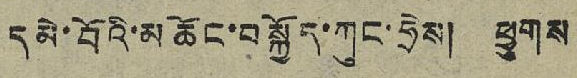དམེ་བོའི་མཆོང་བསྐྱོད་ཀུང་ཧྲེས། ཕྱུགས
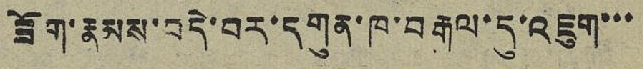ཟོག་རྣམས་བདེ་བར་དགུན་ཁ་བརྒལ་དུ་འཇུག་་་
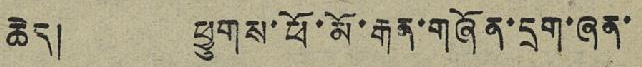ཆེད། ཕྱུགས་ཕོ་མོ་རྒན་གཞོན་དྲག་ཞན་
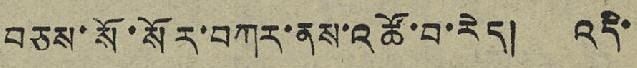བཅས་སོ་སོར་བཀར་ནས་འཚོ་བ་རེད། འདི་
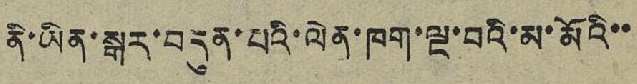ནི་ཡིན་སྒར་བདུན་པའི་ལེན་ཁག་ལྔ་བའི་མ་མོའི་་
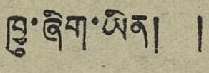ཁྱུ་ཞིག་ཡིན། །
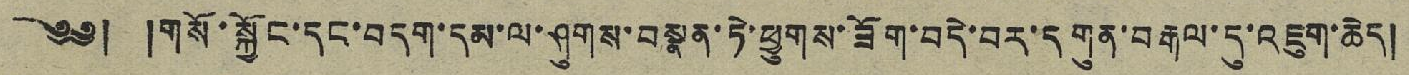༄༅། །གསོ་སྐྱོང་དང་བདག་དམ་ལ་ཤུགས་བསྣན་ཏེ་ཕྱུགས་ཟོག་བདེ་བར་དགུན་བརྒལ་དུ་འཇུག་ཆེད།
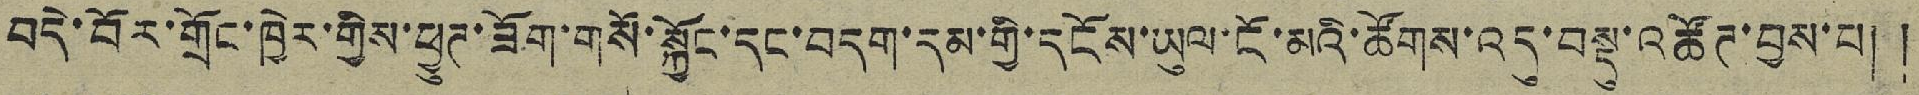བདེ་བོར་གྲོང་ཁྱེར་གྱིས་ཕྱུཊ་ཟོག་གསོ་སྐྱོང་དང་བདག་དམ་གྱི་དངོས་ཡུལ་ངོ་མའི་ཚོགས་འདུ་བསྡུ་འཚོཊ་བྱས་པ། །
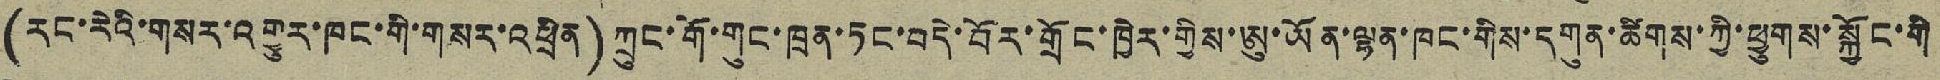(རང་རེའི་གསར་འགྱུར་ཁང་གི་གསར་འཕྲིན)ཀྲུང་གོ་གུང་ཁྲན་ཏང་བདེ་བོར་གྲོང་ཁྱེར་གྱིས་ཨུ་ཡོན་ལྷན་ཁང་གིས་དགུན་ཚིགས་ཀྱི་ཕྱུགས་སྐྱོང་གི
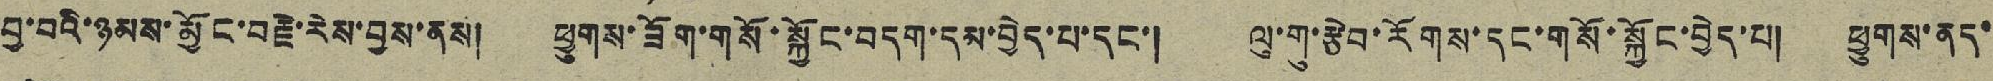བྱ་བའི་ཉམས་མྱོང་བརྗེ་རེས་བྱས་ནས། ཕྱུགས་ཟོག་གསོ་སྐྱོང་བདག་དམ་བྱེད་པ་དང་། ལུ་གུ་རྩེབ་རོགས་དང་གསོ་སྐྱོང་བྱེད་པ། ཕྱུགས་ནད་
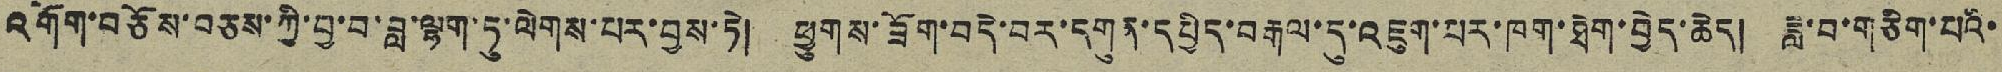འགོག་བཅོས་བཅས་ཀྱི་བྱ་བ་བ་ལྷག་ཏུ་ལེགས་པར་བྱས་ཏེ། ཕྱུགས་ཟོག་བདེ་བར་དགུན་དཔྱིད་བརྒལ་དུ་འཇུག་པར་ཁག་ཐེག་བྱེད་ཆེད། ཟླ་བ་གཅིག་པའི་
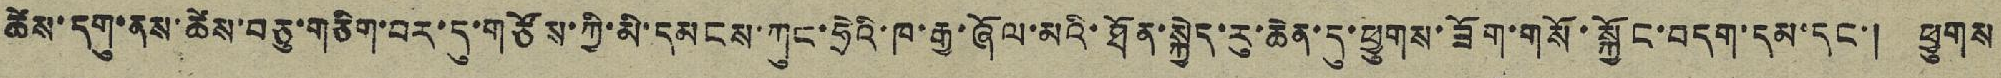ཚེས་དགུ་ནས་ཚེས་བཅུ་གཅིག་བར་དུ་གཙོས་ཀྱི་མི་དམངས་ཀུང་ཧྲེའི་ཁ་རྒྱ་ཞོལ་མའི་ཐོན་སྐྱེད་རུ་ཆེན་དུ་ཕྱུགས་ཟོག་གསོ་སྐྱོང་བདག་དམ་དང་། ཕྱུགས
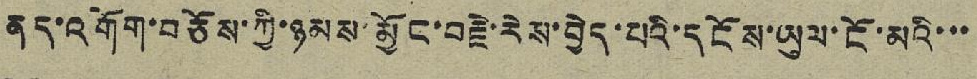ནད་འགོག་བཅོས་ཀྱི་ཉམས་མྱོང་བརྗེ་རེས་བྱེད་པའི་དངོས་ཡུལ་ངོ་མའི་་་
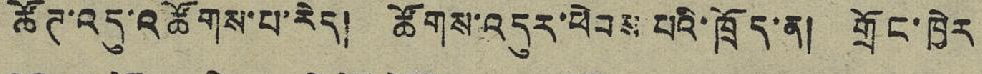ཚོཊ་འདུ་འཚོགས་པ་རེད། ཚོགས་འདུར་ཕེབས་པའི་ཁྲོད་ན། གྲོང་ཁྱེར
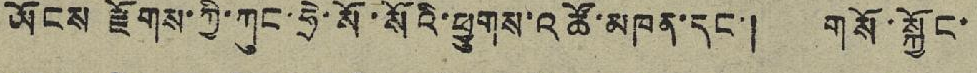ཡོངས་རྫོགས་ཀྱི་ཀུང་ཧྲེ་སོ་སོའི་ཕྱུགས་འཚོ་མཁན་དང་། གསོ་སྐྱོང་
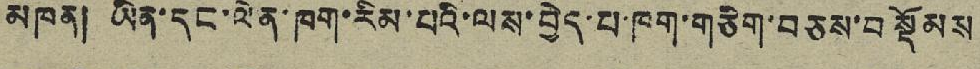མཁན། ཡིན་དང་ལེན་ཁག་རིམ་པའི་ལས་བྱེད་པ་ཁག་གཅིག་བཅས་བསྡོམས
